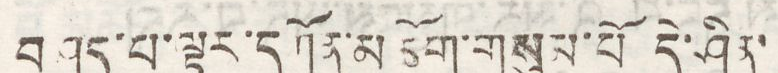བཤད་པ་ལྟར་དཀོན་མཆོག་གསུམ་པོ དེ་ཤིན་
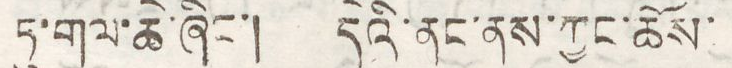ཏུ་གལ་ཆེ་ཞིང་། དེའི་ནང་ནས་ཀྱང་ཆོས་
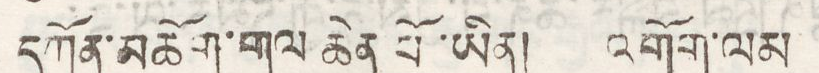དཀོན་མཆོག་གལ ཆེན་པོ་ཡིན། འགོག་ལམ
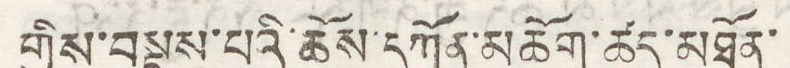གྱིས་བསྡུས་པའི་ཆོས་དཀོན་མཆོག་ཚད་མཐོན་
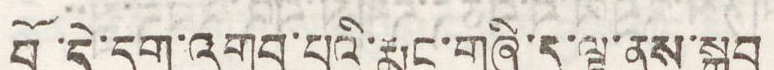བོ་དེ་དག་འགྲུབ་པའི་རྨང་གཞི་ད་ལྟ་ནས་སྒྲུབ
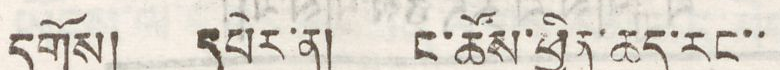དགོས། དཔེར་ན། ང་ཚོས་ཕྱིན་ཆད་རང་་
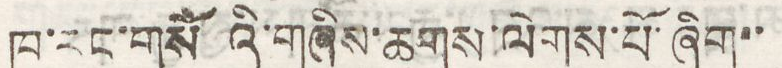ཁ་རང་གསོ འི་གཞིས་ཆགས་ལེགས་པོ་ཞིག་་
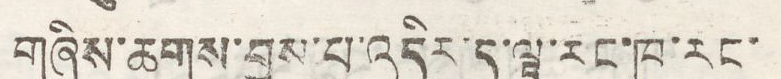གཞིས་ཆགས་བྱས་པ་འདིར་ད་ལྟ་རང་ཁ་རང་
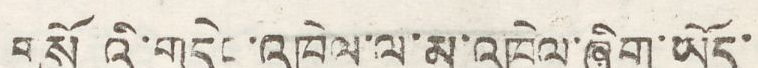གསོ འི་གདེང་འཁེལ་ལ་མ་འཁེལ་ཞིག་ཡོད་
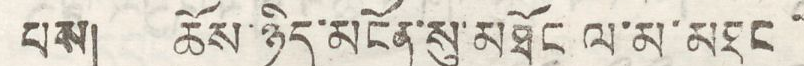པས། ཆོས་ཉིད་མངོན་སུ་མཐོང ལ་མ་མཐང་
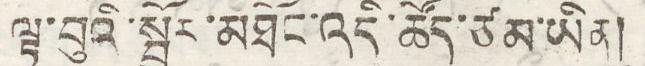ལྟ་བུའི་སྦྱོར་མཐོང་འདི་ཚོད་ཙམ་ཡིན།
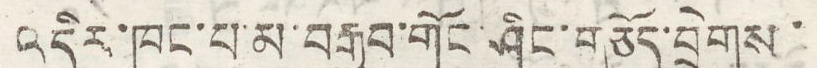འདིར་ཁང་པ་མ་བརྒྱབ་གོང་ཤིང་གཅོད་བྲེགས་
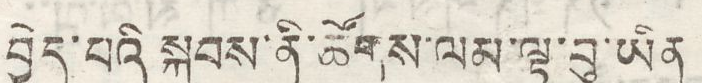བྱེད་པའི སྐབས་ནི་ཚོགས་ལམ་ལྟ་བུ་ཡིན
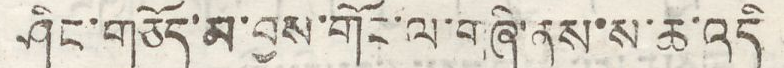ཤིང་གཅོད་མ་བྱས་གོང་ལ་གཞི་ནས་ས་ཆ་འདི
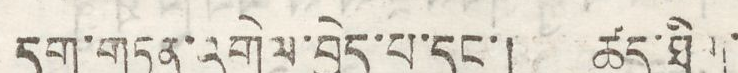དག་གཏན་འགེལ་བྱེད་པ་དང་། ཚད་ཐིག
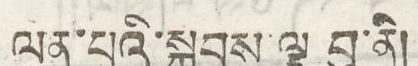ལན་པའི་སྐབས་ལྟ བུ་ནི།
